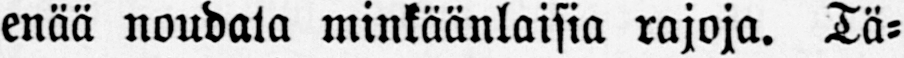enää noudata minkäänlaisia rajoja. Tä-
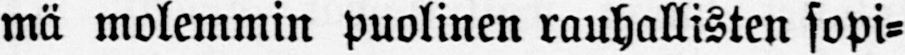mä molemmin puolinen rauhallisten sopi-
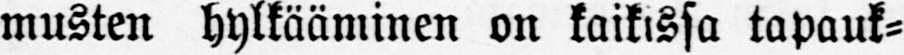musten hylkääminen on kaikissa tapauk-
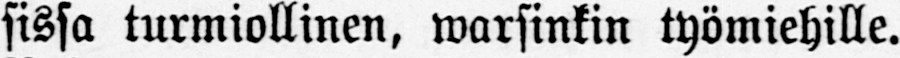sissa turmiollinen, warsinkin työmiehille.
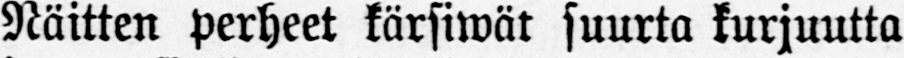Näitten perheet kärsiwät suurta kurjuutta
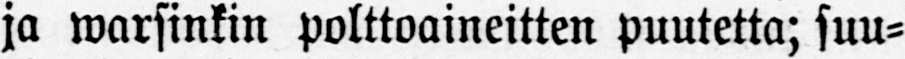ja warsinkin polttoaineitten puutetta; suu-
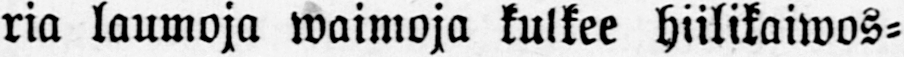ria laumoja waimoja kulkee hiilikaiwos-
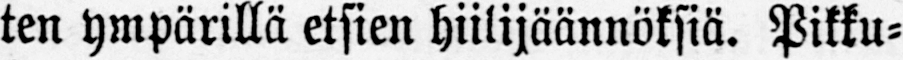ten ympärillä etsien hiilijäännöksiä. Pikku-
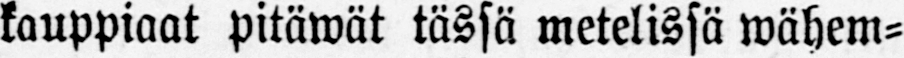kauppiaat pitäwät tässä metelissä wähem-
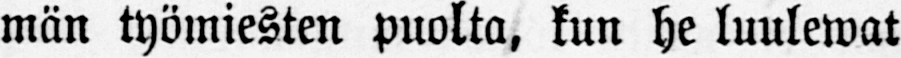män työmiesten puolta, kun he luulewat
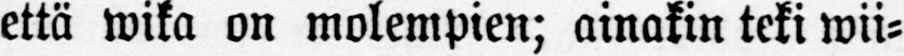että wika on molempien; ainakin teki wii-
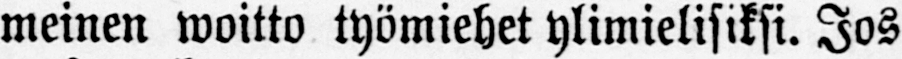meinen woitto työmiehet ylimielisiksi. Jos
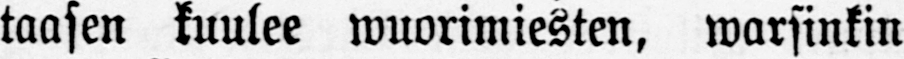taasen kuulee wuorimiesten, warsinkin
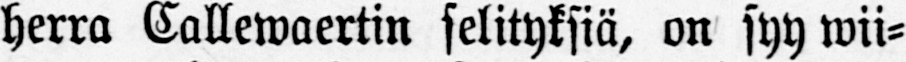herra Callewaertin selityksiä, on syy wii-
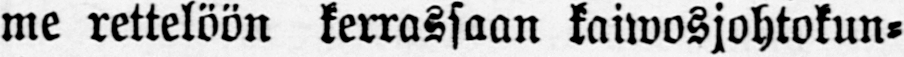me rettelöön kerrassaan kaiwosjohtokun-
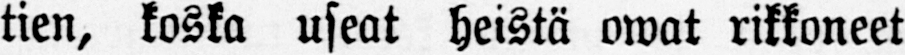tien, koska useat heistä owat rikkoneet
